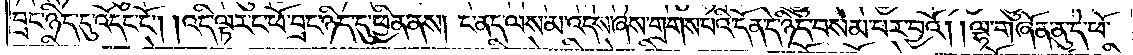བྲང་ཉིད་དུ་འདོང་ངོ༌། །འདི་ལྟར་ང་ཕོ་བྲང་ཉིད་དུ་ཕྱིན་ནས། ང་ནད་ལས་མ་འདས་ཞེས་གྲགས་པའི་དོན་དེ་ཉིད་བསམ་པར་བྱའོ། །ལྷ་གཞོན་ནུ་དེ་ཕོ་
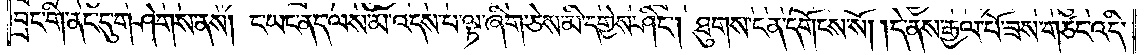བྲང་གི་ནང་དུ་གཤེགས་ནས། ང་ཡང་ནད་ལས་མ་འདས་པ་ལྟ་ཞིག་ཅེས་མི་དགྱེས་ཤིང༌། ཐུགས་ངན་དགོངས་སོ། །དེ་ནས་རྒྱལ་པོ་ཟས་གཙང་འདི་
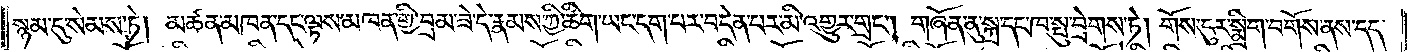སྙམ་དུ་སེམས་ཏེ། མཚན་མཁན་དང་ལྟས་མཁན་གྱི་བྲམ་ཟེ་དེ་རྣམས་ཀྱི་ཚིག་ཡང་དག་པར་བདེན་པར་མི་འགྱུར་གྲང༌། གཞོན་ནུ་སྐྲ་དང་ཁ་སྤུ་བྲེགས་ཏེ། གོས་ངུར་སྨྲིག་བགོས་ནས་དད་
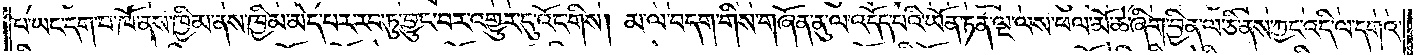པ་ཡང་དག་པ་ཁོ་ནས་ཁྱིམ་ནས་ཁྱིམ་མེད་པར་རབ་ཏུ་བྱུང་བར་འགྱུར་དུ་འོང་གིས། མ་ལ་བདག་གིས་གཞོན་ནུ་ལ་འདོད་པའི་ཡོན་ཏན་ལྔ་ལས་ཕལ་མོ་ཆེ་ཞིག་བྱིན་ལ་ཅི་ནས་ཀྱང་འདི་ལ་དགའ་
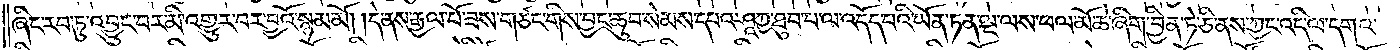ཞིང་རབ་ཏུ་འབྱུང་བར་མི་འགྱུར་བར་བྱའོ་སྙམ་མོ། །དེ་ནས་རྒྱལ་པོ་ཟས་གཙང་གིས་བྱང་ཆུབ་སེམས་དཔའ་ཤཱཀྱ་ཐུབ་པ་ལ་འདོད་པའི་ཡོན་ཏན་ལྔ་ལས་ཕལ་མོ་ཆེ་ཞིག་བྱིན་ཏེ་ཅི་ནས་ཀྱང་འདི་ལ་དགའ་
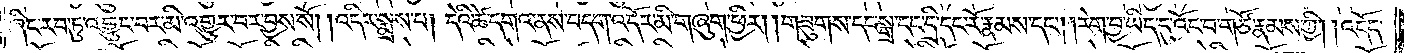ཞིང་རབ་ཏུ་འབྱུང་བར་མི་འགྱུར་བར་བྱས་སོ། །འདིར་སྨྲས་པ། དེའི་ཚེ་དགའ་ནས་བདག་འདོར་མི་གཞུག་ཕྱིར། །གཟུགས་དང་སྒྲ་དང་དྲི་དང་རོ་རྣམས་དང༌། །རེག་བྱ་ཡིད་དུ་འོང་བ་གཙོ་རྣམས་ཀྱི། །འདོད་
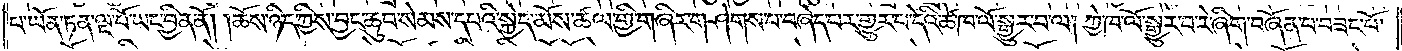པ་ཡོན་ཏན་ལྔ་པོ་ཡང་བྱིན་ནོ། །ཆོས་ཉིད་ཀྱིས་བྱང་ཆུབ་སེམས་དཔའི་སྐྱེད་མོས་ཚལ་གྱི་གཞིར་གཤེགས་པ་བཞེད་པར་གྱུར་པ་དེའི་ཚེ་ཁ་ལོ་སྒྱུར་བ་ལ། ཀྱེ་ཁ་ལོ་སྒྱུར་བ་རེ་ཞིག་བཞོན་པ་བཟང་པོ་
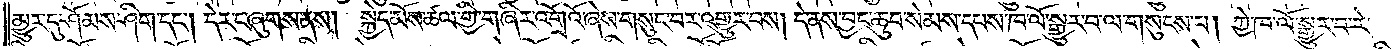མྱུར་དུ་ཤོམས་ཤིག་དང༌། དེར་ང་ཞུགས་ནས། སྐྱེད་མོས་ཚལ་གྱི་གཞིར་འགྲོའོ་ཞེས་གསུང་བར་འགྱུར་བས། དེ་ནས་བྱང་ཆུབ་སེམས་དཔས་ཁ་ལོ་སྒྱུར་བ་ལ་གསུངས་པ། ཀྱེ་ཁ་ལོ་སྒྱུར་བ་རེ་
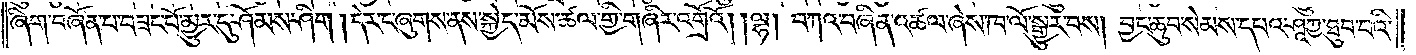ཞིག་བཞོན་པ་བཟང་པོ་མྱུར་དུ་ཤོམས་ཤིག །དེར་ང་ཞུགས་ནས་སྐྱེད་མོས་ཚལ་གྱི་གཞིར་འགྲོའོ། །ལྷ། བཀའ་བཞིན་འཚལ་ཞེས་ཁ་ལོ་སྒྱུར་བས། བྱང་ཆུབ་སེམས་དཔའ་ཤཱཀྱ་ཐུབ་པའི་
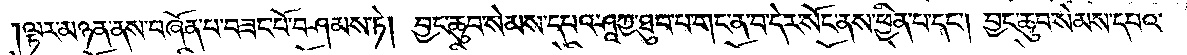ལྟར་མཉན་ནས་བཞོན་པ་བཟང་པོ་བཤམས་ཏེ། བྱང་ཆུབ་སེམས་དཔའ་ཤཱཀྱ་ཐུབ་པ་གང་ན་བ་དེར་སོང་ནས་ཕྱིན་པ་དང༌། བྱང་ཆུབ་སེམས་དཔའ་
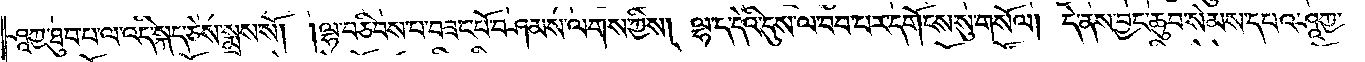ཤཱཀྱ་ཐུབ་པ་ལ་འདི་སྐད་ཅེས་སྨྲས་སོ། །ལྷ་བཅིབས་པ་བཟང་པོ་བཤམས་ལགས་ཀྱིས། ལྷ་ད་དེའི་དུས་ལ་བབ་པར་དགོངས་སུ་གསོལ། དེ་ནས་བྱང་ཆུབ་སེམས་དཔའ་ཤཱཀྱ་
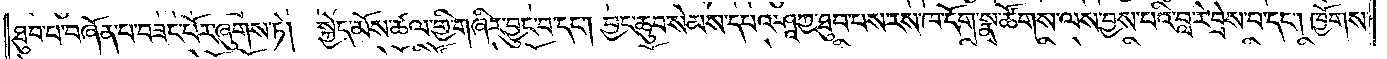ཐུབ་པ་བཞོན་པ་བཟང་པོར་ཞུགས་ཏེ། སྐྱེད་མོས་ཚལ་གྱི་གཞིར་བྱུང་བ་དང༌། བྱང་ཆུབ་སེམས་དཔའ་ཤཱཀྱ་ཐུབ་པས་རས་ཁ་དོག་སྣ་ཚོགས་ལས་བྱས་པའི་བླ་རེ་བྲེས་པ་དང༌། ཁྱོགས་
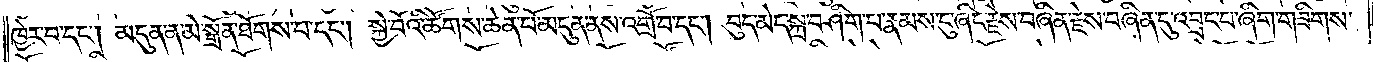ཁྱེར་བ་དང༌། མདུན་ན་མེ་སྒྲོན་ཐོགས་པ་དང༌། སྐྱེ་བོའི་ཚོགས་ཆེན་པོ་མདུན་ནས་འགྲོ་བ་དང༌། བུད་མེད་སྐྲ་བཤིག་པ་རྣམས་ངུ་ཞིང་རྗེས་བཞིན་དུ་འབྲང་བ་ཞིག་གཟིགས་
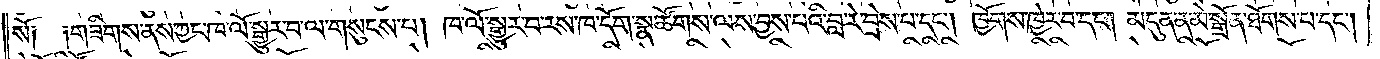སོ༑ ༑གཟིགས་ནས་ཀྱང་ཁ་ལོ་སྒྱུར་བ་ལ་གསུངས་པ། ཁ་ལོ་སྒྱུར་བ་རས་ཁ་དོག་སྣ་ཚོགས་ལས་བྱས་པའི་བླ་རེ་བྲེས་པ་དང༌། ཁྱོགས་ཁྱེར་བ་དང༌། མདུན་ན་མེ་སྒྲོན་ཐོགས་པ་དང༌།
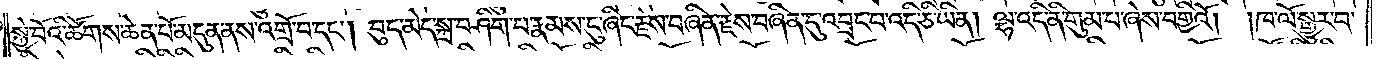སྐྱེ་བོའི་ཚོགས་ཆེན་པོ་མདུན་ནས་འགྲོ་བ་དང༌། བུད་མེད་སྐྲ་བཤིག་པ་རྣམས་ངུ་ཞིང་རྗེས་བཞིན་རྗེས་བཞིན་དུ་འབྲང་བ་འདི་ཅི་ཡིན། ལྷ་འདི་ནི་གུམ་པ་ཞེས་བགྱིའོ།<gap>།ཁ་ལོ་སྒྱུར་བ་
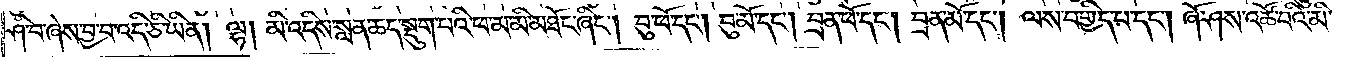ཤི་བ་ཞེས་བྱ་བ་འདི་ཅི་ཡིན། ལྷ། མི་འདིས་སླན་ཆད་སྡུག་པའི་ཕ་མ་མི་མཐོང་ཞིང༌། བུ་ཕོ་དང༌། བུ་མོ་དང༌། བྲན་ཕོ་དང༌། བྲན་མོ་དང༌། ལས་བགྱིད་པ་དང༌། ཞོ་ཤས་འཚོ་བའི་མི་
